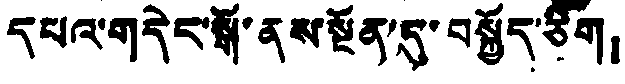དཔའ་གདེང་སྒོ་ནས་སྔོན་དུ་བསྐྱོད་ཅིག！
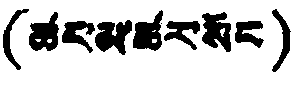(ཚང་མ་ཚར་སོང་ )
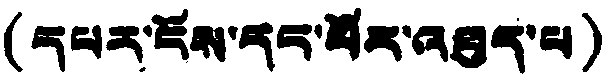(དཔར་ངོས་དང་པོར་འཐུད་པ)
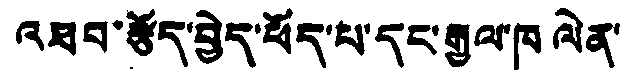འཐབ་རྩོད་བྱེད་ཕོད་པ་དང་རྒྱལ་ཁ ལེན་
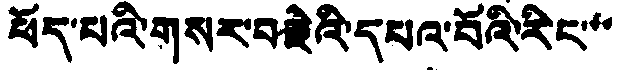ཕོད་པའི་གསར་བརྗེའི་དཔའ་བོའི་རིང་་་
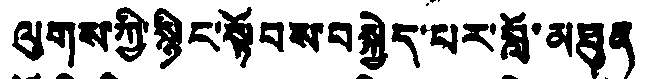ལུགས་ཀྱི་སྙིང་སྟོབས་བསྐྱེད་པར་བློ་མཐུན
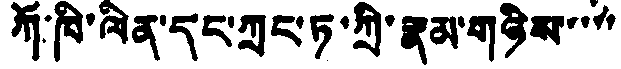ཀོ་ཁི་ལིན་དང་ཀྲང་ཏ་ཀྲི་རྣམ་གཉིས་་་་་
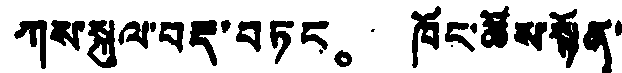ཀས་སྐུལ་བརྡ་བཏང。 ཁོང་ཚོས་སྟོན་
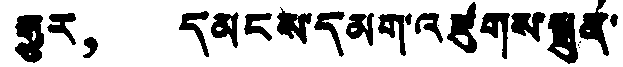རྒྱུར， དམངས་དམག་འཛུགས་སྐྲུན་
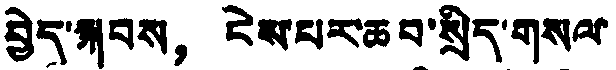བྱེད་སྐབས， ངེས་པར་ཆབ་སྲིད་གསལ་
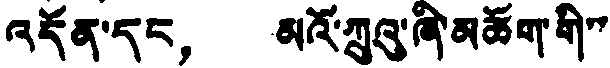འདོན་དང， མའོ་ཀྲུའུ་ཞི་མཆོག་གི་་
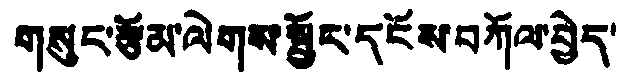གསུང་རྩོམ་ལེགས་སྦྱོང་དངོས་བཀོལ་བྱེད་
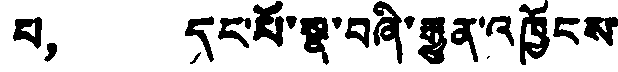པ， དང་པོ་སྣ་བཞི་རྒྱུན་འཁྱོངས་
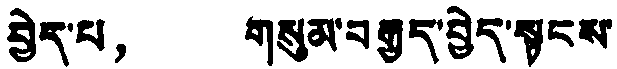བྱེད་པ， གསུམ་བརྒྱུད་བྱེད་སྟངས་
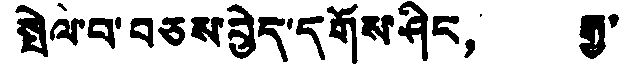སྤེལ་བ་བཅས་བྱེད་དགོས་ཤིང， རྒྱ་
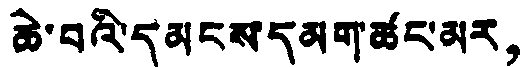ཆེ་བའི་དམངས་དམག་ཚང་མར，
